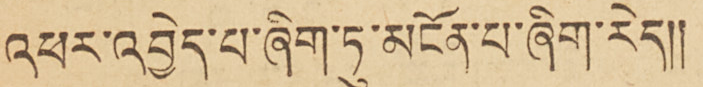འཕར་འབྱེད་པ་ཞིག་ཏུ་མངོན་པ་ཞིག་རེད།།
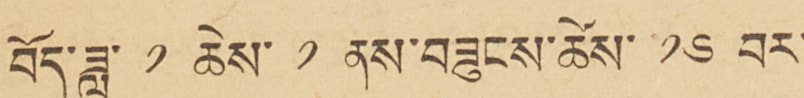བོད་ཟླ་ ༡ ཚེས་ ༡ ནས་བཟུངས་ཚེས་ ༡༦ བར་
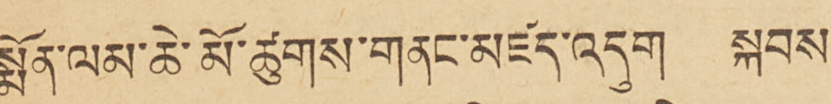སྨོན་ལམ་ཆེན་མོ་ཚུགས་གནང་མཛད་འདུག སྐབས་
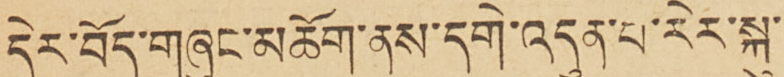དེར་བོད་གཞུང་མཆོག་ནས་དགེ་འདུན་པ་རེར་སྐུ་
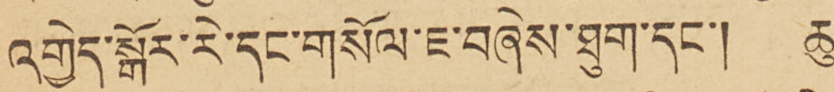འགྱེད་སྒོར་རེ་དང་གསོལ་ཇ་བཞེས་ཐུག་དང་། ཆུ་
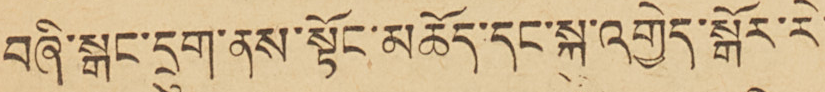བཞི་སྒང་དྲུག་ནས་སྟོང་མཆོད་དང་སྐུ་འགྱེད་སྒོར་རེ་
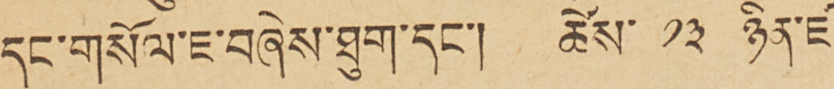དང་གསོལ་ཇ་བཞེས་ཐུག་དང་། ཚེས་ ༡༣ ཉིན་ཛ་
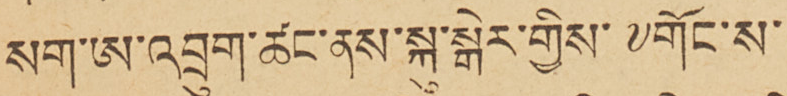སག་ཨ་འབྲུག་ཚང་ནས་སྐུ་སྒེར་གྱིས་༸གོང་ས་
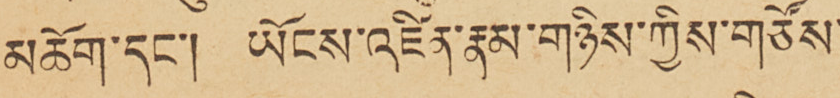མཆོག་དང་། ཡོངས་འཛིན་རྣམ་གཉིས་ཀྱིས་གཙོས་
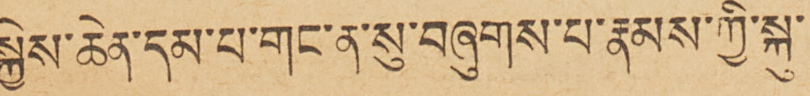སྐྱེས་ཆེན་དམ་པ་གང་ན་སུ་བཞུགས་པ་རྣམས་ཀྱི་སྐུ་
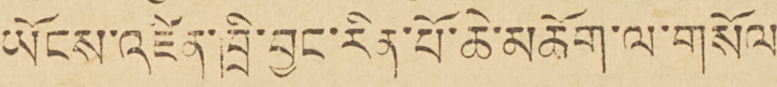ཡོངས་འཛིན་ཁྲི་བྱང་རིན་པོ་ཆེ་མཆོག་ལ་གསོལ་
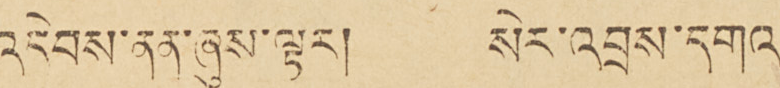འདེབས་ནན་ཞུས་ལྟར། སེར་འབྲས་དགའ་
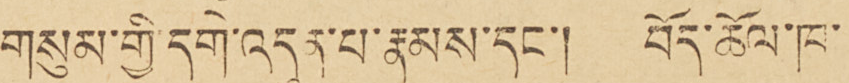གསུམ་གྱི་དགེ་འདུན་པ་རྣམས་དང་། བོད་ཆོལ་ཁ་
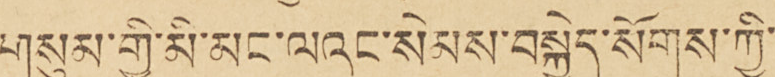གསུམ་གྱི་མི་མང་ལའང་སེམས་བསྐྱེད་སོགས་ཀྱི་
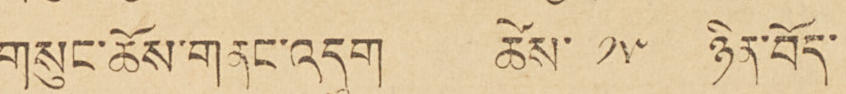གསུང་ཆོས་གནང་འདུག ཚེས ༡༥ ཉིན་བོད་
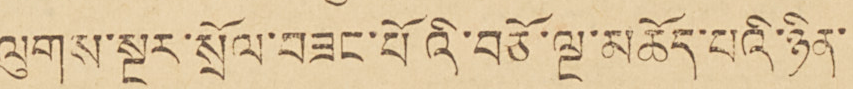ལུགས་སྔར་སྲོལ་བཟང་པོའི་བཅོ་ལྔ་མཆོད་པའི་ཉིན་
